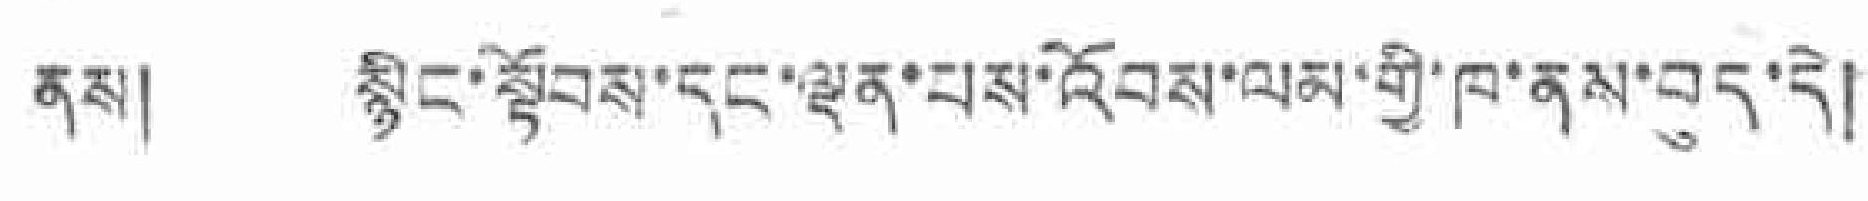ནས། སྙིང་སྟོབས་དང་ལྡན་པས་འོབས་ལམ་གྱི་ཁ་ནས་བུད་དེ།
